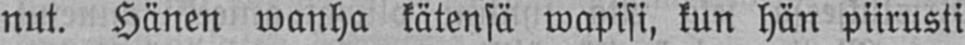nut. Hänen wanha kätensä wapisi, kun hän piirusti
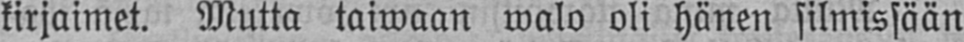kirjaimet. Mutta taiwaan walo oli hänen silmissään
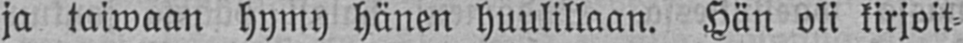ja taiwaan hymy hänen huulillaan. Hän oli kirjoit-
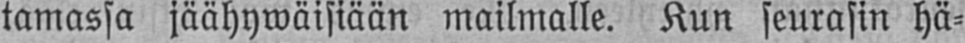tamassa jäähywäisiään mailmalle. Kun seurasin hä-
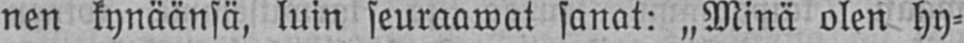nen kynäänsä, luin seuraawat sanat: „Minä olen hy-
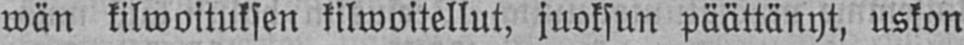wän kilwoituksen kilwoitellut, juoksun päättänyt, uskon
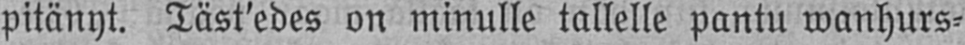pitänyt. Täst'edes on minulle tallelle pantu wanhurs-
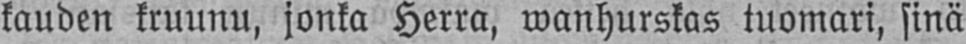kauden kruunu, jonka Herra, wanhurskas tuomari, sinä
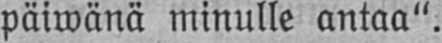päiwänä minulle antaa".
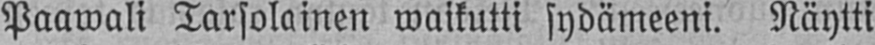Paawali Tarsolainen waikutti sydämeeni. Näytti
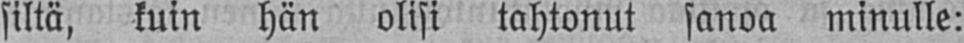siltä, kuin hän olisi tahtonut sanoa minulle:
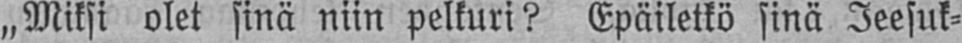„Miksi olet sinä niin pelkuri? Epäiletkö sinä Jeesuk-
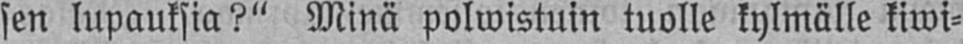sen lupauksia?" Minä polwistuin tuolle kylmälle kiwi-
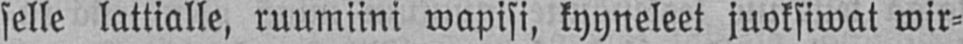selle lattialle, ruumiini wapisi, kyyneleet juoksiwat wir-
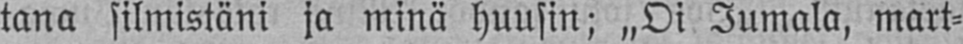tana silmistäni ja minä huusin; „Oi Jumala, mart-
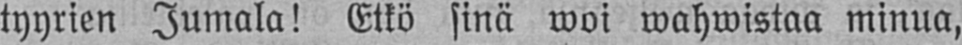tyyrien Jumala! Etkö sinä woi wahwistaa minua,
